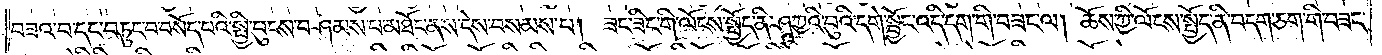བཟའ་བ་དང་བཏུང་བ་བསོད་པའི་སྤྱི་བུངས་བཤམས་པ་མཐོང་ནས་དེས་བསམས་པ། ཟང་ཟིང་གི་ལོངས་སྤྱོད་ནི་ཤཱཀྱའི་བུའི་དགེ་སྦྱོང་འདི་དག་གི་བཟང་ལ། ཆོས་ཀྱི་ལོངས་སྤྱོད་ནི་བདག་ཅག་གི་བཟང་
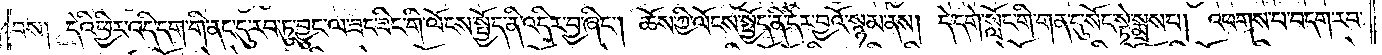བས། དེའི་ཕྱིར་འདི་དག་གི་ནང་དུ་རབ་ཏུ་བྱུང་ལ་ཟང་ཟིང་གི་ལོངས་སྤྱོད་ནི་འདིར་བྱ་ཞིང༌། ཆོས་ཀྱི་ལོངས་སྤྱོད་ནི་དེར་བྱའོ་སྙམ་ནས། དེ་དགེ་སློང་གི་གན་དུ་སོང་སྟེ་སྨྲས་པ། འཕགས་པ་བདག་རབ་
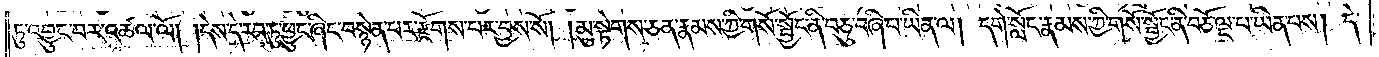ཏུ་འབྱུང་བར་འཚལ་ལོ། །དེས་དེ་རབ་ཏུ་ཕྱུང་ཞིང་བསྙེན་པར་རྫོགས་པར་བྱས་སོ། །མུ་སྟེགས་ཅན་རྣམས་ཀྱི་གསོ་སྦྱོང་ནི་བཅུ་བཞི་བ་ཡིན་ལ། དགེ་སློང་རྣམས་ཀྱི་གསོ་སྦྱོང་ནི་བཅོ་ལྔ་པ་ཡིན་པས། དེ་
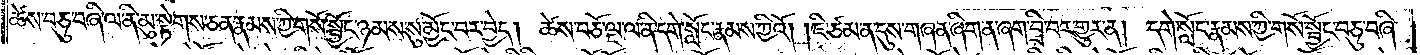ཚེས་བཅུ་བཞི་ལ་ནི་མུ་སྟེགས་ཅན་རྣམས་ཀྱི་གསོ་སྦྱོང་ཉམས་སུ་མྱོང་བར་བྱེད། ཚེས་བཅོ་ལྔ་ལ་ནི་དགེ་སློང་རྣམས་ཀྱིའོ། །ཇི་ཙམ་ན་དུས་གཞན་ཞིག་ན་ཞག་བྲི་བར་གྱུར་ན། དགེ་སློང་རྣམས་ཀྱི་གསོ་སྦྱོང་བཅུ་བཞི་
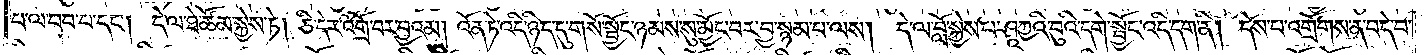པ་ལ་བབ་པ་དང༌། དེ་ལ་ཐེ་ཚོམ་སྐྱེས་ཏེ། ཅི་དེར་འགྲོ་བར་བྱའམ། འོན་ཏེ་འདི་ཉིད་དུ་གསོ་སྦྱོང་ཉམས་སུ་མྱོང་བར་བྱ་སྙམ་པ་ལས། དེ་ལ་བློ་སྐྱེས་པ་ཤཱཀྱའི་བུའི་དགེ་སྦྱོང་འདི་དག་ནི། དེས་པ་འགྲོགས་ན་བདེ་བ་
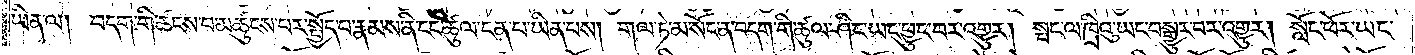ཡིན་ལ། བདག་གི་ཚངས་པ་མཚུངས་པར་སྤྱོད་པ་རྣམས་ནི་ངང་ཚུལ་ངན་པ་ཡིན་པས། གལ་ཏེ་མ་སོང་ན་བདག་གི་ཚུལ་ཤིང་ཡང་ཕྱུང་བར་འགྱུར། སྤང་ལ་ཁྲིའུ་ཡང་བསྒྱུར་བར་འགྱུར། སློང་ཕོར་ཡང་
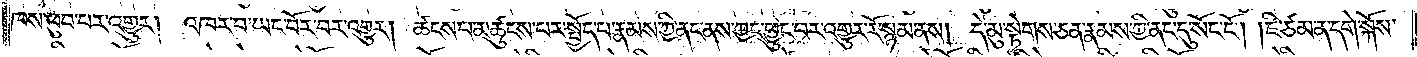ཁས་ཕུབ་པར་འགྱུར། འཁར་བ་ཡང་བོར་བར་འགྱུར། ཚངས་པ་མཚུངས་པར་སྤྱོད་པ་རྣམས་ཀྱི་ནང་ནས་ཀྱང་ཕྱུང་བར་འགྱུར་རོ་སྙམ་ནས། དེ་མུ་སྟེགས་ཅན་རྣམས་ཀྱི་ནང་དུ་སོང་ངོ༌། །ཇི་ཙམ་ན་དགེ་སྐོས་
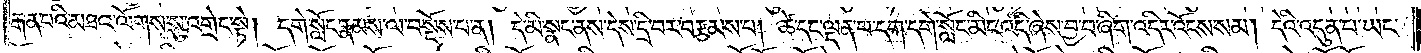རྒན་པའི་མཐའ་ལོགས་སུ་འགྲེང་སྟེ། དགེ་སློང་རྣམས་ལ་བསྔོས་པ་ན། དེ་མི་སྣང་ནས་དེས་དྲི་བར་བརྩམས་པ། ཚེ་དང་ལྡན་པ་དག་དགེ་སློང་མིང་འདི་ཞེས་བྱ་བ་ཞིག་འདིར་འོངས་སམ། དེའི་འདུན་པ་ཡང་
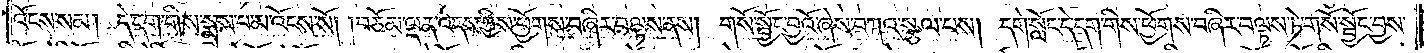འོངས་སམ། དེ་དག་གིས་སྨྲས་པ་མ་འོངས་སོ། །བཅོམ་ལྡན་འདས་ཀྱིས་ཕྱོགས་བཞིར་བལྟས་ནས། གསོ་སྦྱོང་བྱའོ་ཞེས་བཀའ་སྩལ་པས། དགེ་སློང་དེ་དག་གིས་ཕྱོགས་བཞིར་བལྟས་ཏེ་གསོ་སྦྱོང་བྱས་
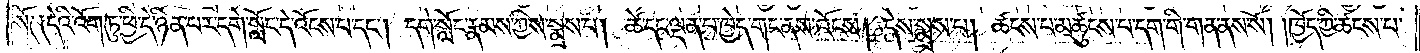སོ༑ ༑ དེའི་འོག་ཏུ་ཕྱི་དེ་ཉིན་པར་དགེ་སློང་དེ་འོངས་པ་དང༌། དགེ་སློང་རྣམས་ཀྱིས་སྨྲས་པ། ཚེ་དང་ལྡན་པ་ཁྱེད་གང་ནས་འོངས། དེས་སྨྲས་པ། ཚངས་པ་མཚུངས་པ་དག་གི་གན་ནས་སོ། །ཁྱོད་ཀྱི་ཚངས་པ་
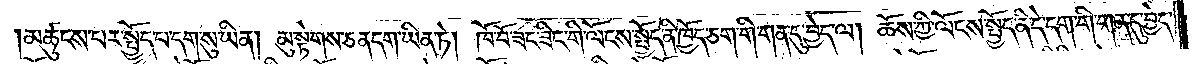མཚུངས་པར་སྤྱོད་པ་དག་སུ་ཡིན། མུ་སྟེགས་ཅན་དག་ཡིན་ཏེ། ཁོ་བོ་ཟང་ཟིང་གི་ལོངས་སྤྱོད་ནི་ཁྱོད་ཅག་གི་གན་དུ་བྱེད་ལ། ཆོས་ཀྱི་ལོངས་སྤྱོད་ནི་དེ་དག་གི་གན་དུ་བྱེད་
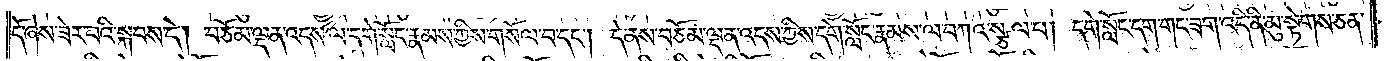དོ་ཞེས་ཟེར་བའི་སྐབས་དེ། བཅོམ་ལྡན་འདས་ལ་དགེ་སློང་རྣམས་ཀྱིས་གསོལ་བ་དང༌། དེ་ནས་བཅོམ་ལྡན་འདས་ཀྱིས་དགེ་སློང་རྣམས་ལ་བཀའ་སྩལ་པ། དགེ་སློང་དག་གང་ཟག་འདི་ནི་མུ་སྟེགས་ཅན་
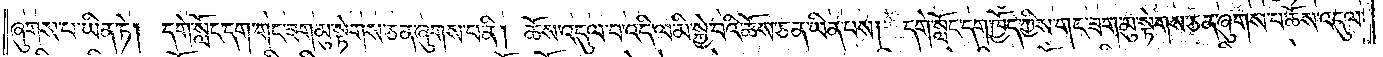ཞུགས་པ་ཡིན་ཏེ། དགེ་སློང་དག་གང་ཟག་མུ་སྟེགས་ཅན་ཞུགས་པ་ནི། ཆོས་འདུལ་བ་འདི་ལ་མི་སྐྱེ་བའི་ཆོས་ཅན་ཡིན་པས། དགེ་སློང་དག་ཁྱོད་ཀྱིས་གང་ཟག་མུ་སྟེགས་ཅན་ཞུགས་པ་ཆོས་འདུལ་
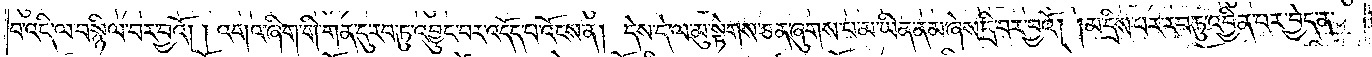བ་འདི་ལ་བསྙིལ་བར་བྱའོ། །འགའ་ཞིག་གི་གན་དུ་རབ་ཏུ་འབྱུང་བར་འདོད་པ་འོངས་ན། དེས་དེ་ལ་མུ་སྟེགས་ཅན་ཞུགས་པ་མ་ཡིན་ནམ་ཞེས་དྲི་བར་བྱའོ། །མ་དྲིས་པར་རབ་ཏུ་འབྱིན་པར་བྱེད་ན་
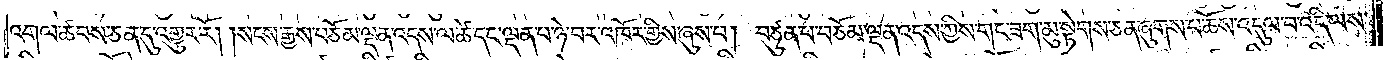འགལ་ཚབས་ཅན་དུ་འགྱུར་རོ། །སངས་རྒྱས་བཅོམ་ལྡན་འདས་ལ་ཚེ་དང་ལྡན་པ་ཉེ་བར་འཁོར་གྱིས་ཞུས་པ། བཙུན་པ་བཅོམ་ལྡན་འདས་ཀྱིས་གང་ཟག་མུ་སྟེགས་ཅན་ཞུགས་པ་ཆོས་འདུལ་བ་འདི་ལས་
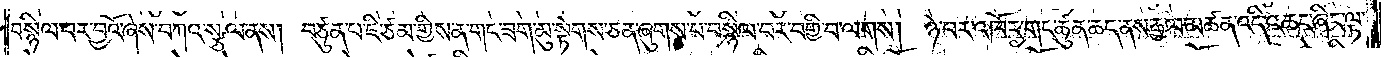བསྙིལ་བར་བྱའོ་ཞེས་བཀའ་སྩལ་ནས། བཙུན་པ་ཇི་ཙམ་གྱིས་ན་གང་ཟག་མུ་སྟེགས་ཅན་ཞུགས་པ་བསྙིལ་བར་བགྱི་བ་ལགས། ཉེ་འཁོར་གང་ཚུན་ཆད་ནས་རྒྱལ་མཚན་འདི་འཆང་ཞིང་ལྟ་
